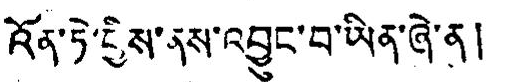འོན་ཏེ་བྱིས་ནས་འབྱུང་བ་ཡིན་ཞེ་ན། །
